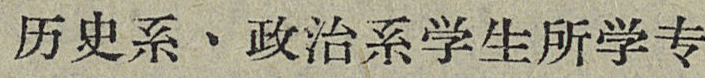历史系、政治系学生所学专
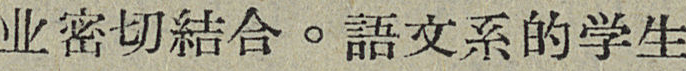业密切結合。語文系的学生
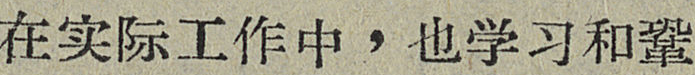在世纪工作中，也学习和鞏
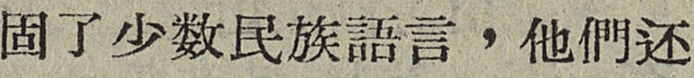固了少数民族語言，他們还
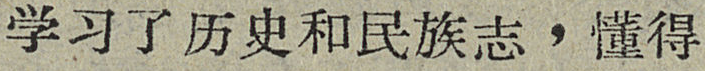学习了历史和民族志，懂得
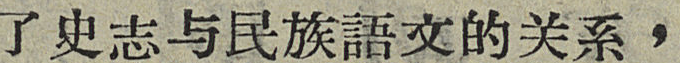了史志与民族語文的关系，
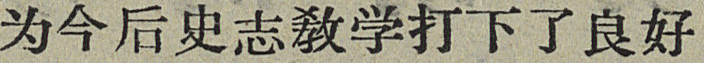为今后史志敎学打下了良好
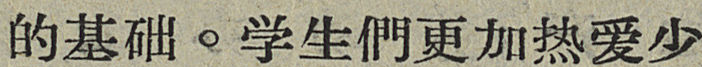的基础。学生們更加热爱少
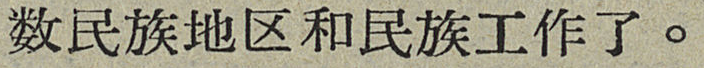数民族地区和民族工作了。
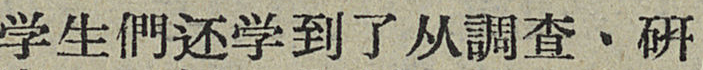学生們还学到了从調查、研
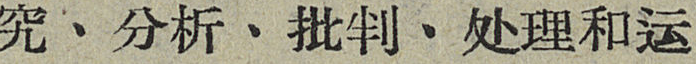究、分析、批判、处理和运
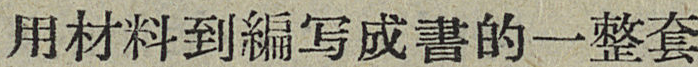用材料到編写成書的一整套
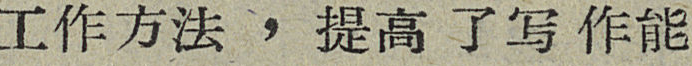工作方法，提高了写作能
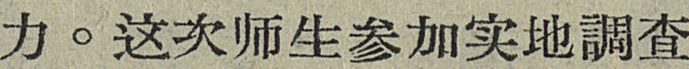力。这次师生参加实地調查
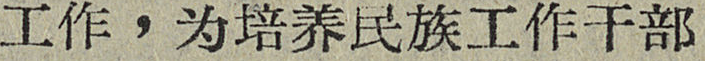工作，为培养民族工作干部
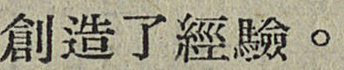創造了經驗。
